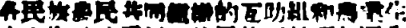各民族農民共同組織的互助組和農業生
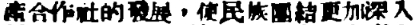產合作社的發展，使民族團結更加深入
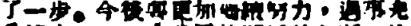了一步。今後要更加繼續努力，遇事充
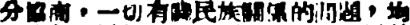分協商，一切有關民族關係的問題，均
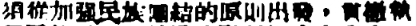須從加強民族團結的原則出發，貫徹執
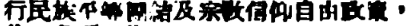行民族平等團結及宗敎信仰自由政策，
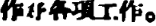做好各項工作。
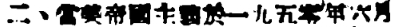二、當美帝國主義於一九五零年六月
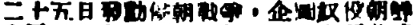二十五日發動侵朝戰爭，企圖奴役朝鮮
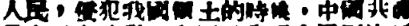人民，侵犯我國領土的時候，中國共產
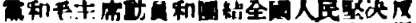黨和毛主席動員和團結全國人民堅決反
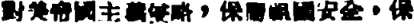對美帝國主義侵略，保衛祖國安全，保
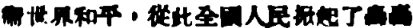衛世界和平，從此全國人民掀起了轟轟
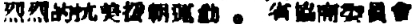烈烈的抗美援朝運動。 省協商委員會
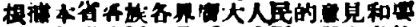根據本省各族各界廣大人民的意見和要
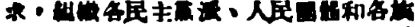求，組織各民主黨派、人民團體和各族
